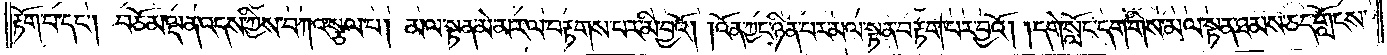རྟོག་པ་དང༌། བཅོམ་ལྡན་འདས་ཀྱིས་བཀའ་སྩལ་པ། མལ་སྟན་མེ་མར་ལ་བརྟགས་པར་མི་བྱའོ། །འོན་ཀྱང་ཉིན་པར་མལ་སྟན་བརྟག་པར་བྱའོ། །དགེ་སློང་དག་གིས་མལ་སྟན་ཐམས་ཅད་གློངས་
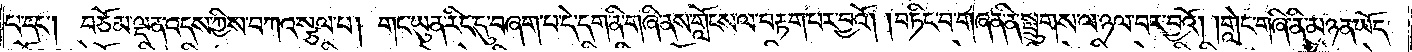པ་དང༌། བཅོམ་ལྡན་འདས་ཀྱིས་བཀའ་སྩལ་པ། གང་ཡུན་རིང་དུ་བཞག་པ་དེ་དག་ནི་གཞི་ནས་གློངས་ལ་བརྟག་པར་བྱའོ། །བཏིང་བ་གཞན་ནི་སྤྲུགས་ལ་ཉལ་བར་བྱའོ། །གླེང་གཞི་ནི་མཉན་ཡོད་
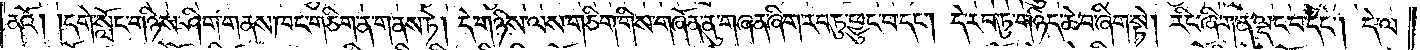ནའོ། །དགེ་སློང་གཉིས་ཤིག་གནས་ཁང་གཅིག་ན་གནས་ཏེ། དེ་གཉིས་ལས་གཅིག་གིས་གཞོན་ནུ་གཞན་ཞིག་རབ་ཏུ་ཕྱུང་བ་དང༌། དེ་རབ་ཏུ་གཉིད་ཆེ་བ་ཞིག་སྟེ། རིང་ཞིག་ན་ལྡང་བ་དང༌། དེ་ལ་
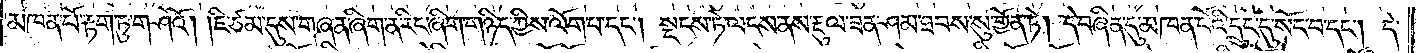མཁན་པོ་རྟག་ཏུ་གཤེའོ། །ཇི་ཙམ་དུས་གཞན་ཞིག་ན་རིང་ཞིག་གཉིད་ཀྱིས་ལོག་པ་དང༌། སྡངས་ཏེ་ལངས་ནས་རྡུལ་ཟན་ཤམ་ཐབས་སུ་གྱོན་ཏེ། དེ་བཞིན་དུ་མཁན་པོའི་དྲུང་དུ་སོང་བ་དང༌། དེ་
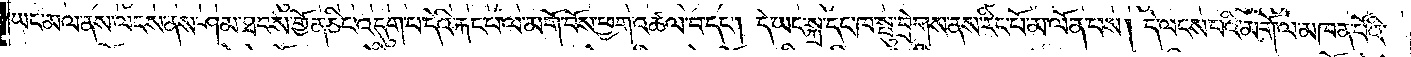ཡང་མལ་ནས་ལངས་ནས་ཤམ་ཐབས་གྱོན་ཅིང་འདུག་པ་དེའི་རྐང་པ་ལ་མགོ་བོས་ཕྱག་འཚལ་བ་དང༌། དེ་ཡང་སྐྲ་དང་ཁ་སྤུ་བྲེགས་ནས་རིང་པོ་མ་ལོན་པས། དེ་ལངས་པའི་མགོ་ལ་མཁན་པོའི་
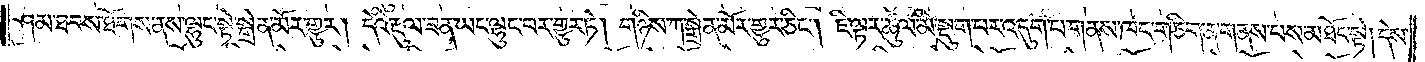ཤམ་ཐབས་ཐོགས་ནས་ལྷུང་སྟེ་སྒྲེན་མོར་གྱུར། དེའི་རྡུལ་ཟན་ཡང་ལྷུང་བར་གྱུར་ཏེ། གཉིས་ཀ་སྒྲེན་མོར་གྱུར་ཅིང༌། ཇི་ལྟར་ཚུལ་མི་སྡུག་པར་འདུག་པ་གནས་ཁང་གཅིག་ན་གནས་པས་མཐོང་སྟེ། དེས་
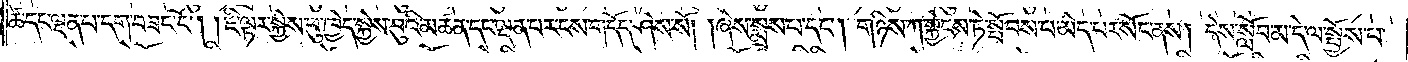ཚེ་དང་ལྡན་པ་དག་བཟང་ངོ༌། །ཇི་ལྟར་སྐྱེས་བུ་ཁྱེད་སྐྱེས་བུའི་མཚན་དང་ལྡན་པར་ངས་གདོད་ཤེས་སོ། །ཞེས་སྨྲས་པ་དང༌། གཉིས་ཀ་སྐྱེངས་ཏེ་སྤོབས་པ་མེད་པར་སོང་ནས། དེས་སློབ་མ་དེ་ལ་སྤྱོས་པ་
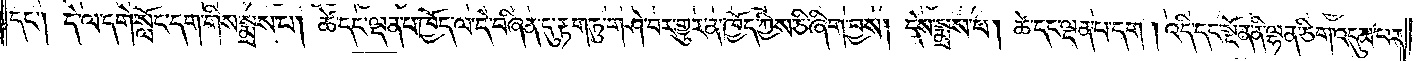དང༌། དེ་ལ་དགེ་སློང་དག་གིས་སྨྲས་པ། ཚེ་དང་ལྡན་པ་ཁྱོད་ལ་དེ་བཞིན་དུ་རྟག་ཏུ་གཤེ་བར་གྱུར་ན་ཁྱོད་ཀྱིས་ཅི་ཞིག་བྱས། དེས་སྨྲས་པ། ཚེ་དང་ལྡན་པ་དག །འདི་དང་སྔོན་ནི་ལྷན་ཅིག་འདུམ་པར་
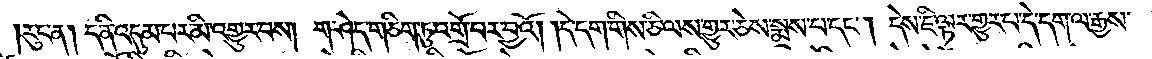རུང་ན། ད་ནི་འདུམ་པར་མི་འགྱུར་བས། ག་ཤེད་གཅིག་ཏུ་འགྲོ་བར་བྱའོ། །དེ་དག་གིས་ཅི་ལས་གྱུར་ཅེས་སྨྲས་པ་དང༌། དེས་ཇི་ལྟར་གྱུར་པ་དེ་དག་ལ་རྒྱས་
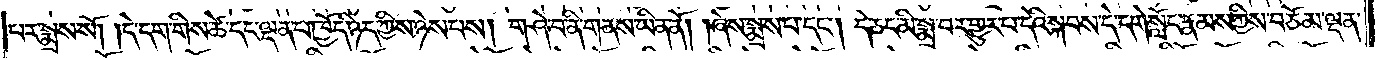པར་སྨྲས་སོ། །དེ་དག་གིས་ཚེ་དང་ལྡན་པ་ཁྱོད་ཉིད་ཀྱིས་ཉེས་པས། གཤེ་བ་ནི་གནས་ཡིན་ནོ། །ཞེས་སྨྲས་པ་དང༌། དེ་ཅང་མི་སྨྲ་བར་གྱུར་བ་དེའི་སྐབས་དེ་དགེ་སློང་རྣམས་ཀྱིས་བཅོམ་ལྡན་
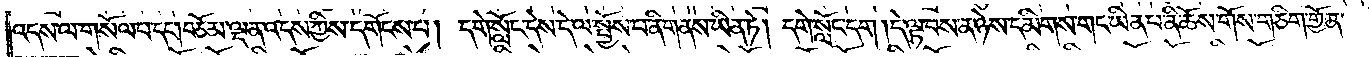འདས་ལ་གསོལ་པ་དང༌། བཅོམ་ལྡན་འདས་ཀྱིས་དགོངས་པ། དགེ་སློང་དེས་དེ་ལ་སྤྱོས་པ་ནི་གནས་ཡིན་ཏེ། དགེ་སློང་དག །དེ་ལྟ་བས་ན་ཉེས་དམིགས་གང་ཡིན་པ་ནི་ཆོས་གོས་གཅིག་གྱོན་
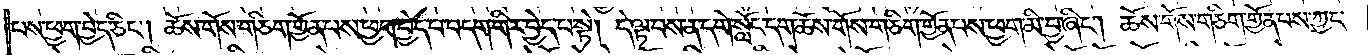པས་ཕྱག་བྱེད་ཅིང༌། ཆོས་གོས་གཅིག་གྱོན་པས་ཕྱག་བྱེད་པ་བདག་གིར་བྱེད་པ་སྟེ། དེ་ལྟ་བས་ན་དགེ་སློང་དག་ཆོས་གོས་གཅིག་གྱོན་པས་ཕྱག་མི་བྱ་ཞིང༌། ཆོས་གོས་གཅིག་གྱོན་པས་ཀྱང་
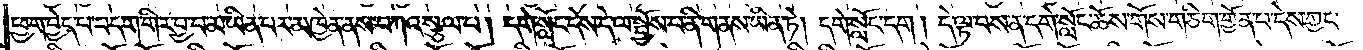ཕྱག་བྱེད་པ་བདག་གིར་བྱ་བ་མ་ཡིན་པར་མཁྱེན་ནས་བཀའ་སྩལ་པ། དགེ་སློང་དེས་དེ་ལ་སྤྱོས་པ་ནི་གནས་ཡིན་ཏེ། དགེ་སློང་དག །དེ་ལྟ་བས་ན་དགེ་སློང་ཆོས་གོས་གཅིག་གྱོན་པ་དེས་ཀྱང་
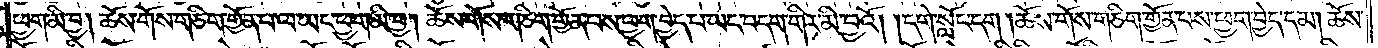ཕྱག་མི་བྱ། ཆོས་གོས་གཅིག་གྱོན་པ་ལ་ཡང་ཕྱག་མི་བྱ། ཆོས་གོས་གཅིག་གྱོན་པས་ཕྱག་བྱེད་པ་ཡང་བདག་གིར་མི་བྱའོ། །དགེ་སློང་དག །ཆོས་གོས་གཅིག་གྱོན་པས་ཕྱག་བྱེད་དམ། ཆོས་
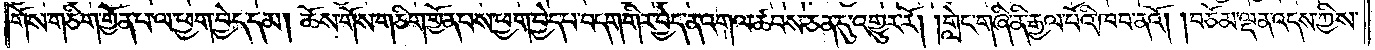གོས་གཅིག་གྱོན་པ་ལ་ཕྱག་བྱེད་དམ། ཆོས་གོས་གཅིག་གྱོན་པས་ཕྱག་བྱེད་པ་བདག་གིར་བྱེད་ན་འགལ་ཚབས་ཅན་དུ་འགྱུར་རོ། །གླེང་གཞི་ནི་རྒྱལ་པོའི་ཁབ་ནའོ། །བཅོམ་ལྡན་འདས་ཀྱིས་
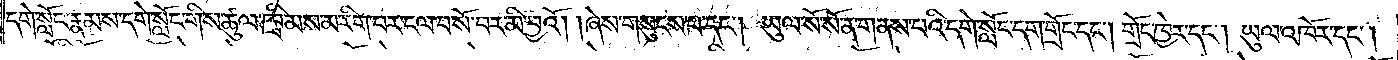དགེ་སློང་རྣམས་དགེ་སློང་གིས་ཚུལ་ཁྲིམས་མ་རིག་པར་ངལ་བསོ་བར་མི་བྱའོ། །ཞེས་གསུངས་པ་དང༌། ཡུལ་སོ་སོ་ན་གནས་པའི་དགེ་སློང་དག་གྲོང་དང༌། གྲོང་ཁྱེར་དང༌། ཡུལ་འཁོར་དང༌།
